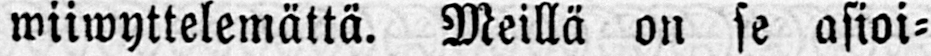wiiwyttelemättä. Meillä on se asioi-
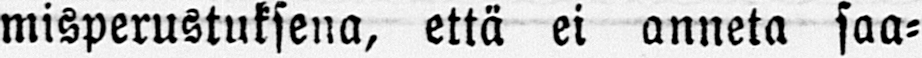misperustuksena, että ei anneta saa-
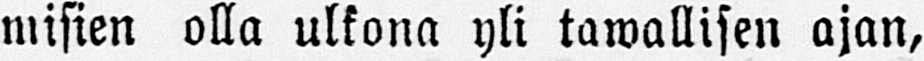misien olla ulkona yli tawallisen ajan,
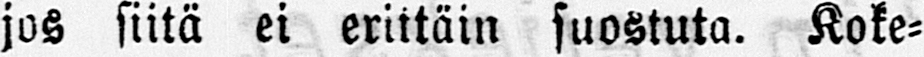jos siitä ei erittäin suostuta. Koke-
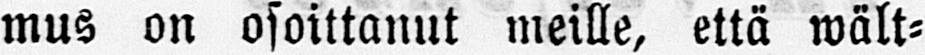mus on osoittanut meille, että wält-
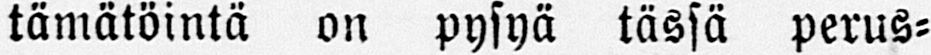tämätöintä on pysyä tässä perus-
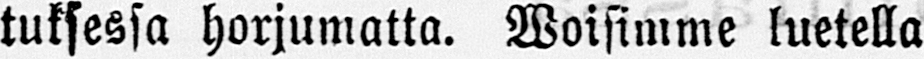tuksessa horjumatta. Woisimme luetella
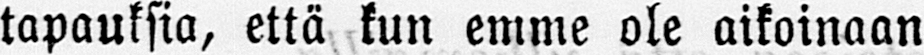tapauksia, että kun emme ole aikoinaan
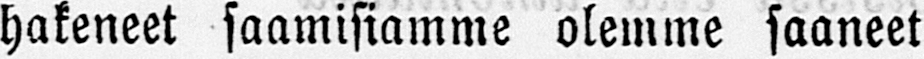hakeneet saamisiamme olemme saaneet
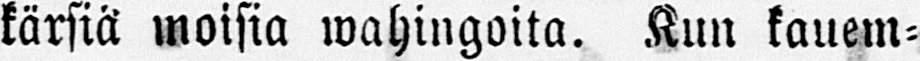kärsiä moisia wahingoita. Kun kauem-
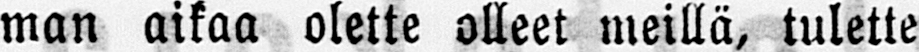man aikaa olette olleet meillä, tulette
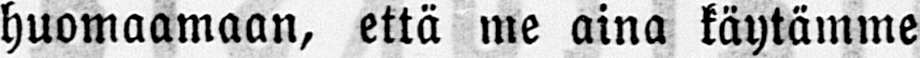huomaamaan, että me aina käytämme
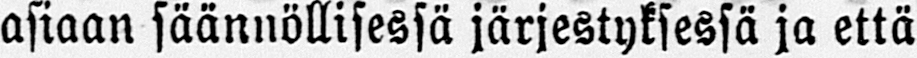asiaan säännöllisessä järjestyksessä ja että
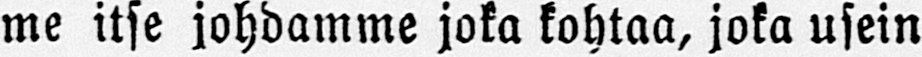me itse johdamme joka kohtaa, joka usein
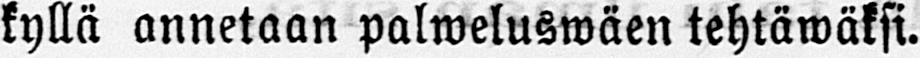kyllä annetaan palweluswäen tehtäwäksi.
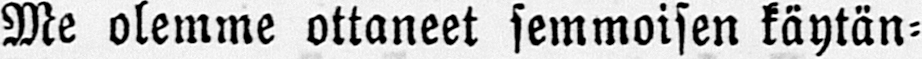Me olemme ottaneet semmoisen käytän-
